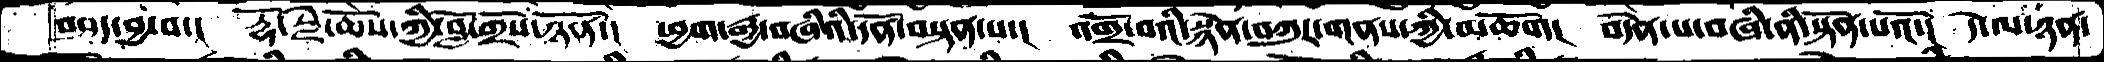བཤད་བྱ་བ་།   རྡོ་རྗེ་ཆོས་ཀྱི་བློ་གྲོས་ཉོན་།   ཕྱག་རྒྱ་བཞིའི་དོན་བསྟན་པ་།  འགྲོ་བའི་སྙེན་བཀུར་གནས་ཀྱི་མཆོག།  བདེན་པ་བཞི་ནི་སྟོན་པའོ་།  དེ་ལ་ཉན་
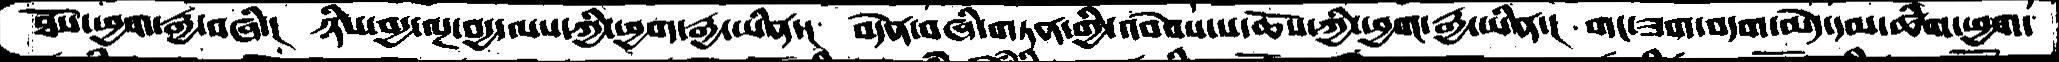ཐོས་ཕྱག་རྒྱ་བཞི་།  ཉིས་བདྱ་ལྔ་བདྱ་ལས་ཀྱི་ཕྱག་རྒྱ་ཡིན་།  བདེན་བཞི་གཏན་གྱི་འབེབས་པ་ཆོས་ཀྱི་ཕྱག་རྒྱ་ཡིན་།  གང་ཟག་བདག་མེད་དམ་ཚིག་ཕྱག་
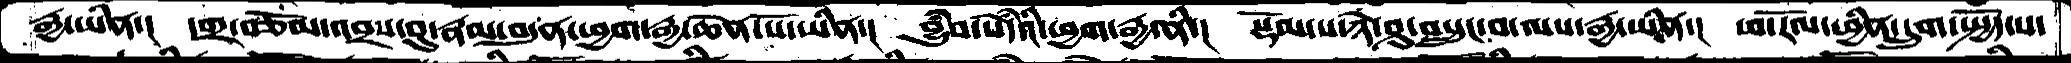རྒྱ་ཡིན་།  དགྲ་བཅོམ་འབྲས་བུ་རྣམ་བདུན་ཕྱག་རྒྱ་ཆེན་པོ་ཡིན་།  བྱུཾབ་སེཾདའི་ཕྱག་རྒྱ་ནི་།  སྡོམ་པ་ཉེ་ཤུ་བསྲུངས་བ་ལས་རྒྱ་ཡིན་།  ཕ་རོལ་ཕྱིན་དྲུག་སྤྱོད་པ་
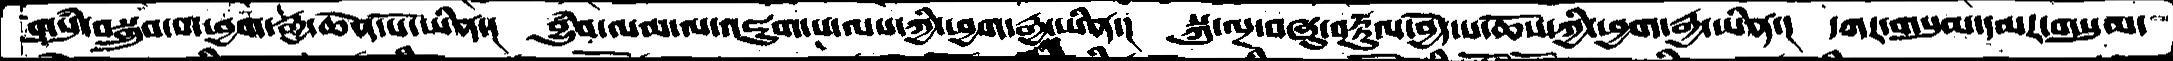གསུཾ་བསྒྲུབ་པ་ཕྱག་རྒྱ་ཆེན་པོ་ཡིན་།  བྱུཾབ་ལམ་ལ་འཇུག་པ་ལས་ཀྱི་ཕྱག་རྒྱ་ཡིན་།  སྐུ་ལྔ་བཞུ་བརྟུལ་བྱེད་པ་ཆོས་ཀྱི་ཕྱག་རྒྱ་ཡིན་།  དཀར་གསུམ་དམར་གསུམ་
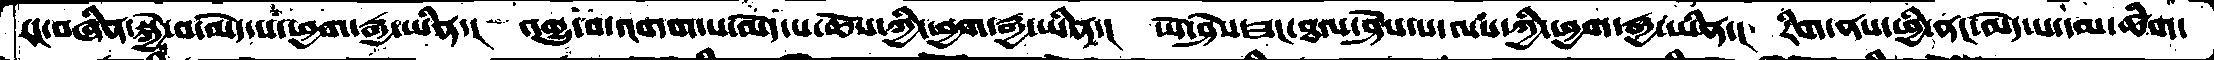རང་བཞིན་སྐྱེ་བ་མེད་པ་ཕྱག་རྒྱ་ཡིན་།  འགྱུ་བ་འགག་པ་མེད་པ་ཆོས་ཀྱི་ཕྱག་རྒྱ་ཡིན་།  ཡེ་ཤེས་ཟང་ཐལ་ཤེས་པ་ལས་ཀྱི་ཕྱག་རྒྱ་ཡིན་།  རིག་ནས་ཕྱི་ནང་མེད་པ་དམ་ཚིག་
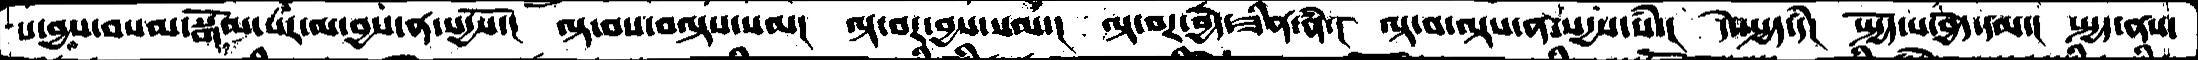པ་བྱས་བསམ་སྒོམ་པར་མ་བྱ་ན་སདྱསོ་།  ལྟ་བས་བལྟས་སམ་།  ལྟ་བར་བྱས་སམ་།  ལྟ་བར་བྱེད་ཟིན་ནཾ་།  ལྟ་བ་ལྟས་ན་སདྱས་སཾ་།  དེ་སྤྱད་དཾ།  སྤྱོད་པ་བྱེད་དམ་།  སྤྱད་ནས་
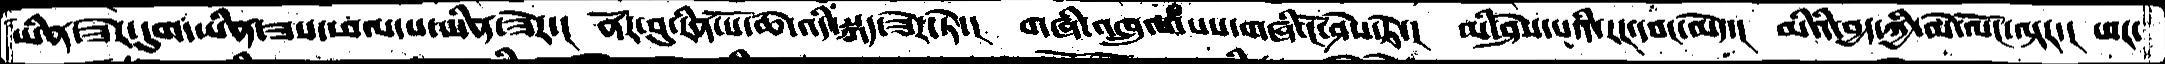ཡིན་ཟེར་དུག་ཡིན་ཟས་ཕལ་པ་ཡིན་ཟེར་།  ནོར་བུ་རིན་པོ་ཆེ་འདི་སྐད་ཟེར་ཏེ་།  གཞི་འཁྲུལ་པས་གཞི་ངོ་ཤེས་ཏེ་།  མི་ཤེས་པའི་རང་དབང་མེད་།  མིའི་བྱད་ཀྱི་མེ་ལོང་ལྟར་།  ཕར་
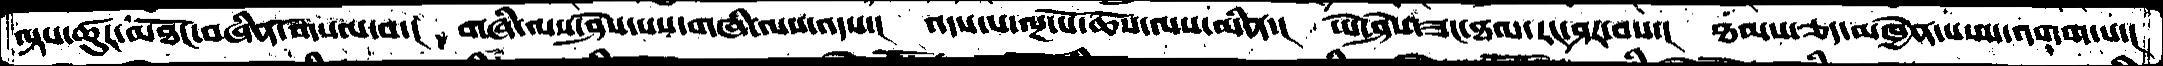ལྟས་ཚུར་མཐོང་བཞིན་གསལ་བ་།  གཞི་ལས་ཤེས་པས་གཞི་ལས་འདས་།  འདས་པ་ལྔ་པོ་ཆོས་ལས་མིན་།  ཡེ་ཤེས་ཟང་ཐལ་རང་ཤར་བས་།   ཐམས་ཅད་མཁྱེན་པ་མ་འགག་པ་།
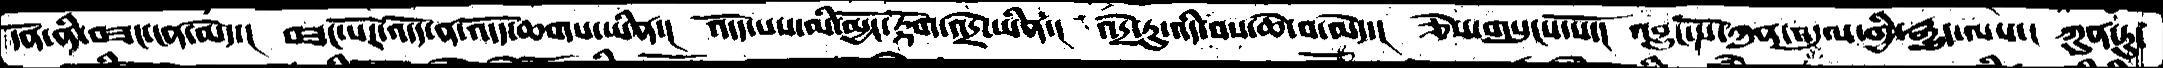དོན་ནི་བཟང་ངན་མེད་།  བཟང་པོར་འདོད་ན་འདོད་ཆགས་ཡིན་།  འདོད་པས་མི་མྱོང་རྟོག་འདྲེ་ཡིན་།  འདྲེ་རུ་འདི་བས་ཆེ་བ་མེད་།  ཅེས་གསུངས་སོ་།  འབྱུང་པོ་ཀུན་འདུལ་གྱི་རྒྱུད་ལས་།  ཀུན་ཏུ་
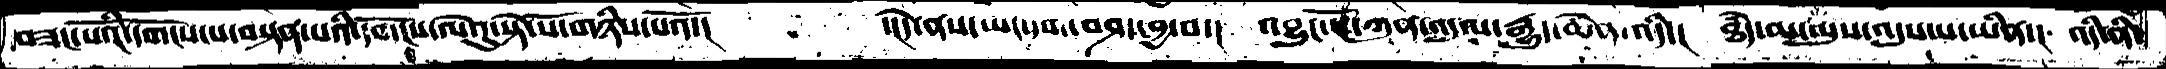བཟང་པོའི་དགོངས་པ་བསྟན་པའི་དགོངས་ལེའུ་སྟེ་སོ་གཉིས་པའོ་།         ་།དེ་ནས་ཡང་དག་བཤད་བྱ་བ་།   འབྱུང་པོ་ཀུན་འདུལ་རྒྱུད་ཆེན་འདི་།  ཐཾད་མ་ལུས་འདུས་པ་ཡིན་།  འདི་ནི་
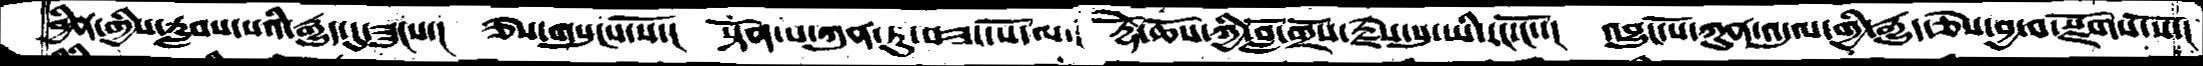བྱིན་གྱིས་རླབས་པའི་རྒྱུད་དུ་ཟུངས་།   ཅེས་གསུངས་སོ་།    སྟོན་པ་ཀུན་ཏུ་བཟང་པོ་ལ་།  རྡོེ་ཆོས་ཀྱི་བློ་གྲོས་རྗེས་སུ་ཡི་རང་ངོ་་།  འབྱུང་པོ་ཀུན་འདུལ་གྱི་རྒྱུད་ཅེས་བྱ་བ་སྫོགས་སོ་།
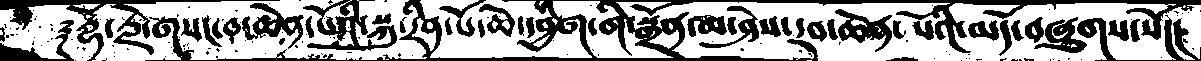༈རྡོ་རྗེ་གསང་བ་ཆེན་པོའི་སྐུ་རིན་པོ་ཆེ་དབྱིག་གི་སྒྲོན་མ་ཤེས་རབ་ཆེན་པོའི་མདོ་བཞུགས་སོ།།།
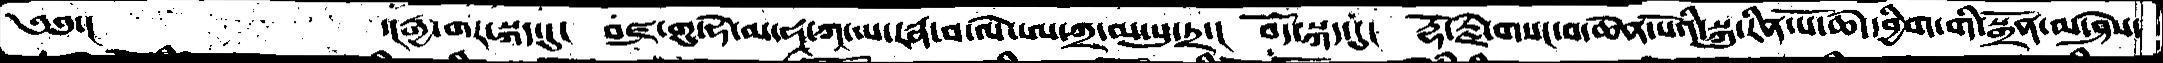༄༅་།         ་།རྒྱ་གར་སྐད་དུ།  བཛྲ་གུ་ཧེ་མ་ཧ་ཀ་ཡ་རཏྣ་བ་ལེ་ཨ་ཀྲ་མ་སུ་ཏྲ་།  བོད་སྐད་དུ།  རྡོ་རྗེ་གསང་བ་ཆེན་པོའི་སྐུ་རིན་པོ་ཆེ་དབྱིག་གི་སྒྲོན་མ་ཤེས་
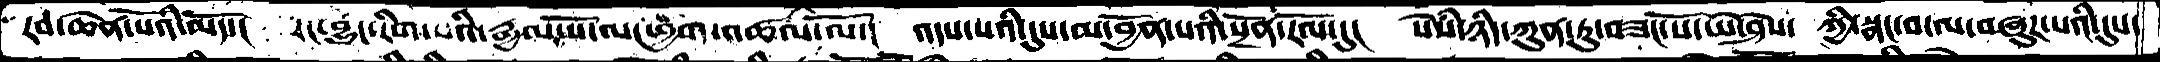རབ་ཆེན་པོའི་མདོ་།  རང་བྱུང་རིག་པའི་རྒྱལ་པོ་ལ་ཕྱག་འཚལ་ལོ་།  འདས་པའི་དུས་མ་བྱོན་པའི་སྔོན་རོལ་དུ་།  སེཾས་ཉིད་ཀུན་ཏུ་བཟང་པོ་ཡེ་ཤེས་ ཀྱི་སྣང་བ་ལ་བཞུཌ་པའི་དུས་
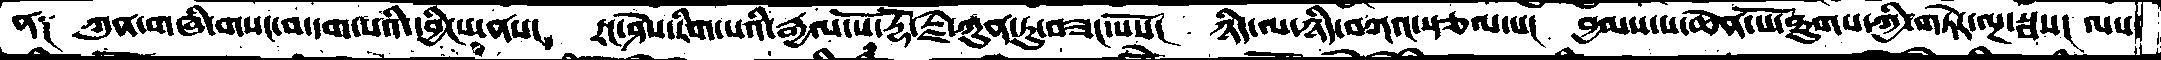ན༑  ཀུན་གཞི་གསང་བ་དག་པའི་དབྱིངས་ནས་།  རང་ཤེས་རིག་པའི་རྒྱལ་པོ་རྡོ་རྗེ་ཀུན་ཏུ་བཟང་པོས།  ཉི་མ་ཉིད་བཀའ་སྩལ་པ་།  བྱམས་པ་ཆེན་པོ་ཐུགས་ཀྱི་གཏེར་ལྔ་སྦས།  ལས་
